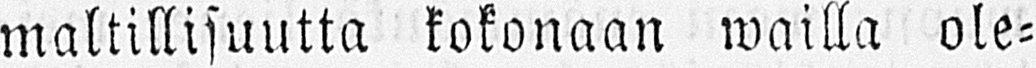maltillisuutta kokonaan wailla ole-
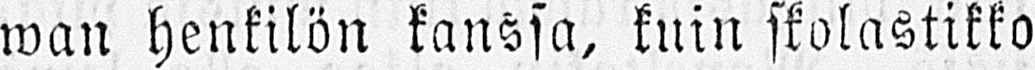wan henkilön kanssa, kuin skolastikko
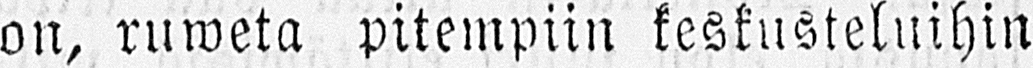on, ruweta pitempiin keskusteluihin
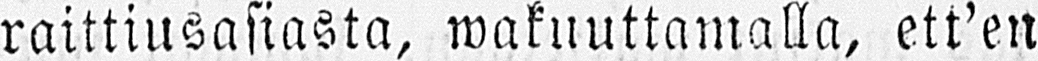raittiusasiasta, wakuuttamalla, ett'en
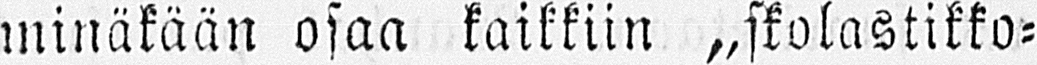minäkään osaa kaikkiin „skolastikko-
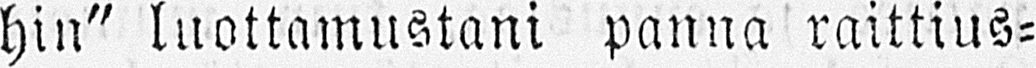hin" luottamustani panna raittius-
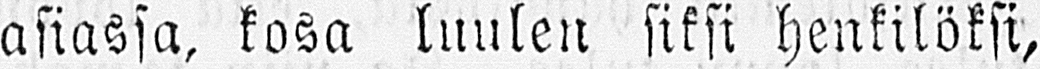asiassa, kosa luulen siksi henkilöksi,
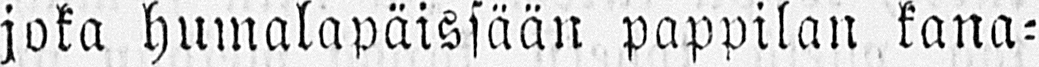joka humalapäissään pappilan kana-
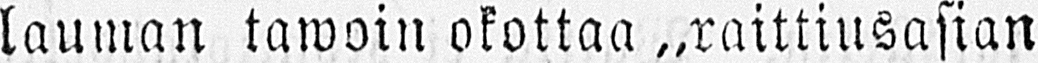lauman tawoin okottaa „raittiusasian
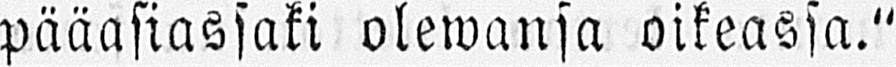pääasiassaki olewansa oikeassa."
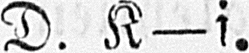D. K-i.
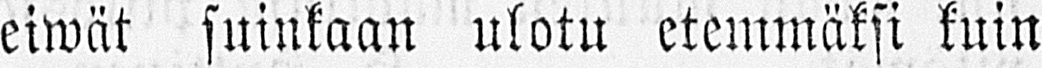eiwät suinkaan ulotu etemmäksi kuin
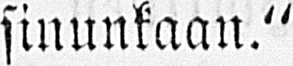sinunkaan."
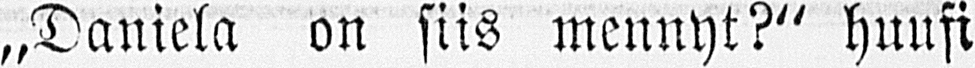„Daniela on siis mennyt?" huusi
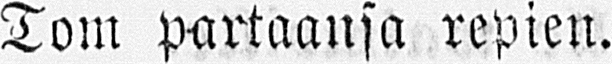Tom partaansa repien.
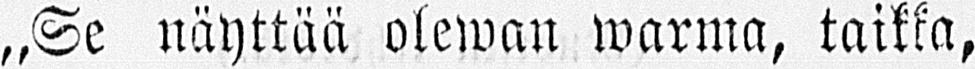„Se näyttää olewan warma, taikka,
